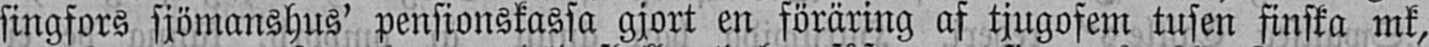singfors sjömanshus' pensionskassa gjort en föräring af tjugofem tusen finska mk,
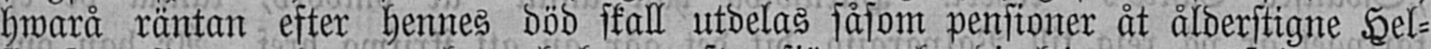hwarå räntan efter hennes död skall utdelas såsom pensioner åt ålderstigne Hel-
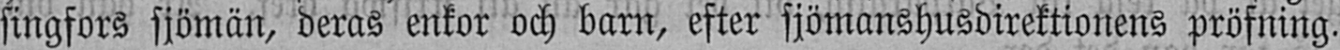singfors sjömän, deras enkor och barn, efter sjömanshusdirektionens pröfning.
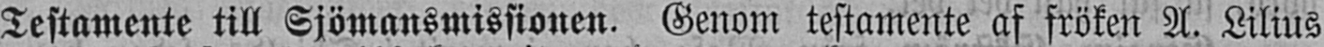Testamente till Sjömansmissionen. Genom testamente af fröken A. Lilius
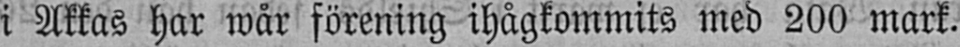i Akkas har wår förening ihågkommits med 200 mark.
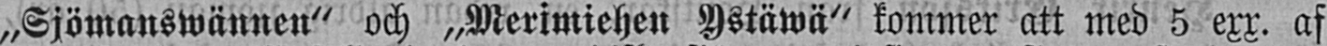„Sjömanswännen" och „Merimiehen Ystäwä" kommer att med 5 exx. af
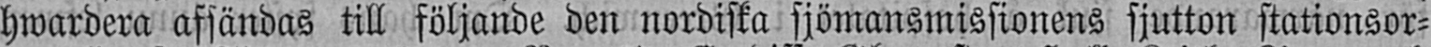hwardera afsändas till följande den nordiska sjömansmissionens sjutton stationsor-
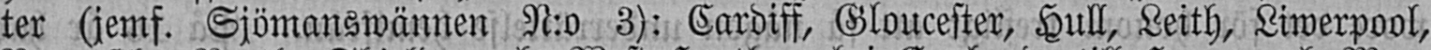ter (jemf. Sjömanswännen N:o 3): Cardiff, Gloucester, Hull, Leith, Liwerpool,
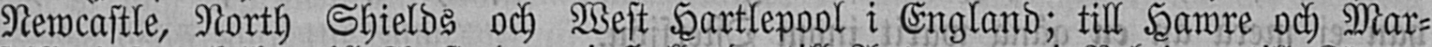Newcastle, North Shields och West Hartlepool i England; till Hawre och Mar-
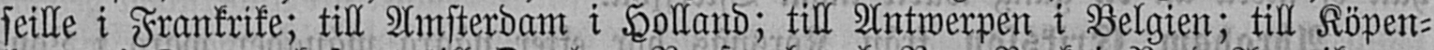seille i Frankrike; till Amsterdam i Holland; till Antwerpen i Belgien; till Köpen-
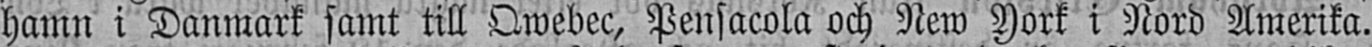hamn i Danmark samt till Qwebec, Pensacola och New York i Nord Amerika.
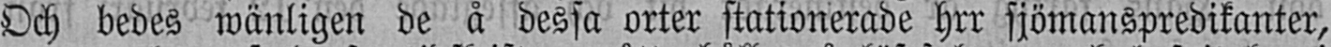Och bedes wänligen de å dessa orter stationerade hrr sjömanspredikanter,
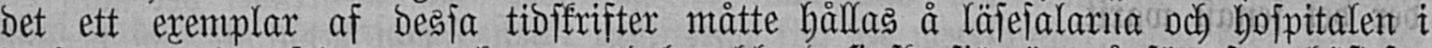det ett exemplar af dessa tidskrifter måtte hållas å läsesalarna och hospitalen i
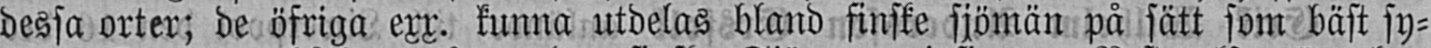dessa orter; de öfriga exx. kunna utdelas bland finske sjömän på sätt som bäst sy-
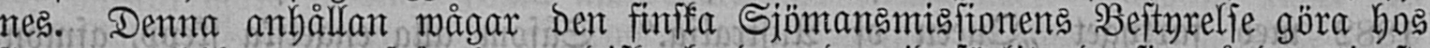nes. Denna anhållan wågar den finska Sjömansmissionens Bestyrelse göra hos
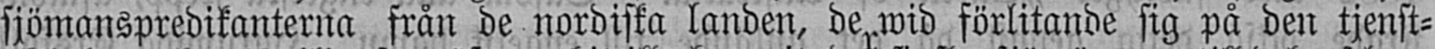sjömanspredikanterna från de nordiska landen, de wid förlitande sig på den tjenst-
